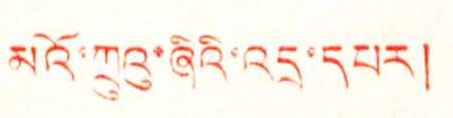མའོ་ཀྲུའུ་ཞིའི་འདྲ་དཔར།
